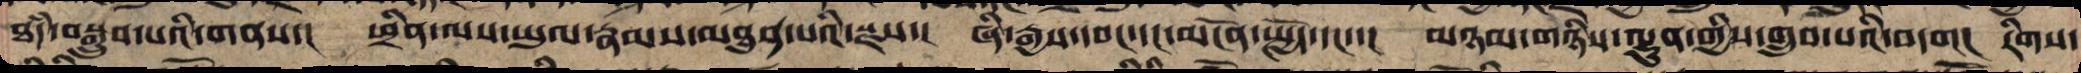ཐཾད་བསྒྲུབ་པའི་གནས་། ཕྲིན་ལས་ཡུལ་རྣམས་མཐུན་པའི་སྫས་། ཞི་རྒྱས་དབང་དང་མངོན་སྤྱོད་དང་་། མཉམ་གཉིས་ལྷུན་གྱིས་གྲུབ་པའི་བདག། རིགས་
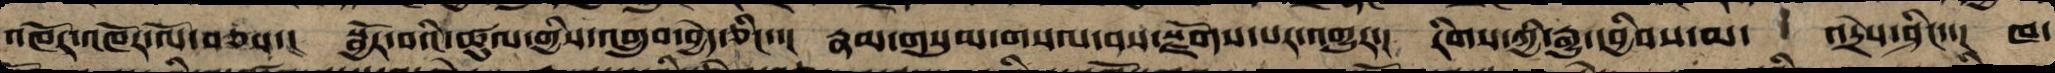འཁོར་འཁོར་ལོ་བཅས་། སྦྱོར་བའི་ཚུལ་གྱིས་འགྲུབ་བྱེད་ཅིང་་། རྣམ་གསུམ་གསལ་བས་སྫོགས་པར་འགྱུར་། རིགས་ཀྱི་རྒྱུ་དབྱིབས་མ་འདྲེས་ཤིང་་། ཁ་
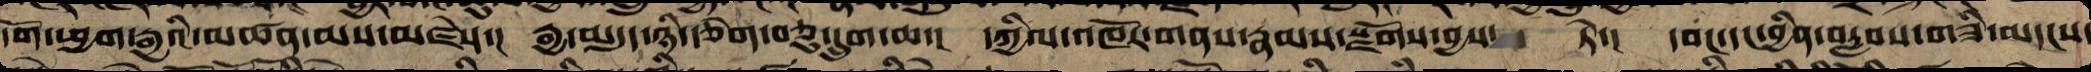དོག་ཕྱག་རྒྱའི་མཚན་མས་མཛེས་། རྒྱ་མདུད་ཉིས་བརྩེག་བཅུ་དྲུག་ཆ་། དཀྱིལ་འཁོར་གནས་རྣམས་སྫོགས་བྱས་ཏེ་། དབང་དང་བྱིན་རླབས་གཟི་མདངས་
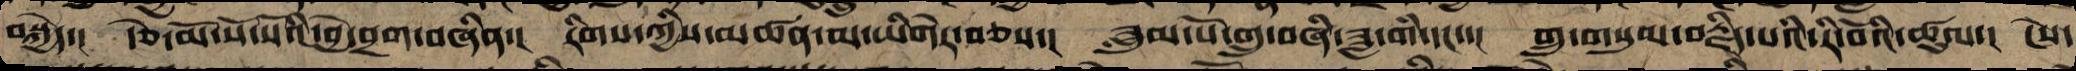བསྐྱེད་། རྩེ་མོ་སོ་སོའི་བྱེ་བྲག་བཞིན་། རིགས་ཀྱི་མཚན་མ་ཡི་གེར་བཅས་། ཟླུམ་པོ་གྲུ་བཞི་ཟླ་གམ་དང་་། གྲུ་གསུམ་བརྗིད་པའི་རི་བོའི་ཚུལ་། ངེས་
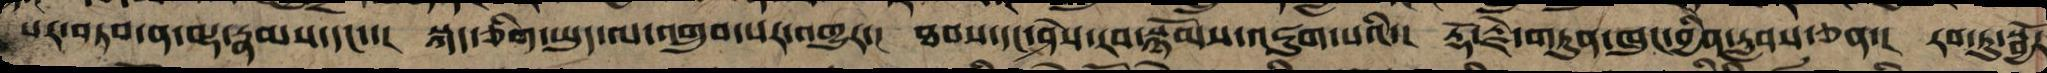པར་བཏབ་ན་ལྷ་རྣམས་དང་་། སྐད་ཅིག་ཡུད་ལ་འགྲུབ་པར་འགྱུར་། ཐབས་དང་ཤེས་རབ་སྙོམས་འཇུག་པའི་། རྡོ་རྗེ་གཏུན་ཁུང་བྱིན་རླབས་ཅན་། རབ་ཏུ་སྦྱོར
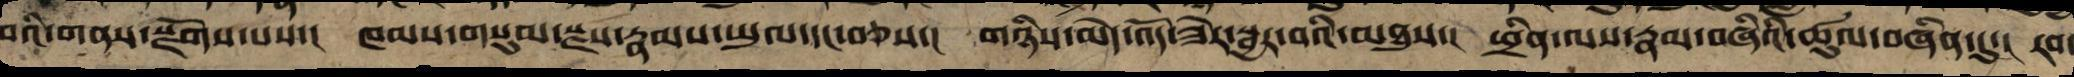བའི་གནས་སྫོགས་པས་། ཁམས་གསུམ་སྫས་རྣམས་ཡུལ་དང་བཅས་། གཉིས་མེད་འོད་ཟེར་སྦྱར་བའི་མཐུས་། ཕྲིན་ལས་རྣམ་བཞིའི་ཚུལ་བཞིན་དུ་། རབ་
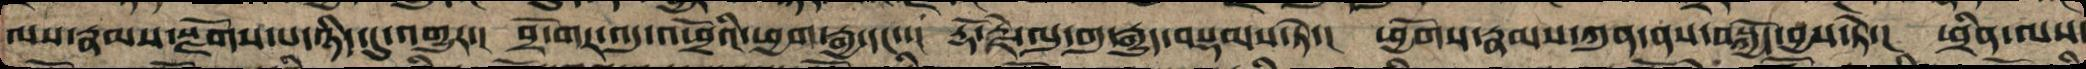ལས་རྣམས་སྫོགས་པ་ཉིད་དུ་འགྱུར་། བྲོ་གར་འདུ་འཕྲོའི་ཕྱག་རྒྱ་དང་་། རྡོ་རྗེ་ལུ་གུ་རྒྱུད་བསྡམས་ཏེ་། ཕྱོགས་རྣམས་ཀུན་ནས་བསྐྱོད་བྱས་ཏེ་། ཕྲིན་ལས་
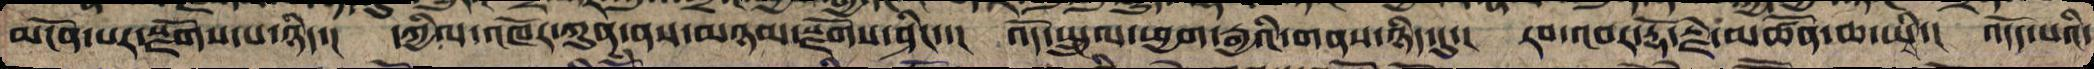མངོན་པར་སྫོགས་པ་ཉིད་། དཀྱིལ་འཁོར་ཀུན་ནས་མཉམ་སྫོགས་ཤིང་་། འོད་སྤྲུལ་ཕྱག་རྒྱའི་གནས་ཉིད་དུ་། རབ་འབར་རྡོ་རྗེའི་མཚོན་ཆ་ཡིས་། འདོད་པའི་
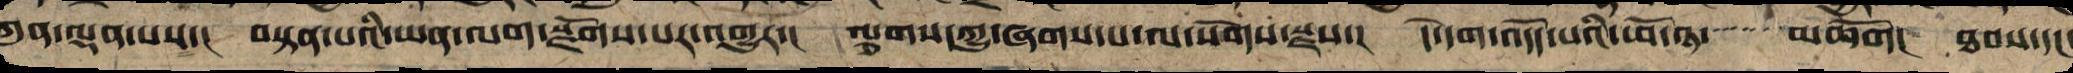ཀུན་ལྡན་པས་། བསྟན་པའི་ཡན་ལག་སྫོགས་པར་འགྱུར་། ལྕགས་ཀྱུ་ཞགས་པ་ལ་སོགས་སྫས་། དེ་དག་འདོད་པའི་ཕོ་ཉ་   མཆོག། ཐབས་དང་
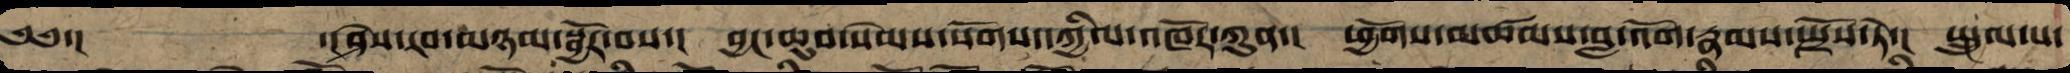༄༅་། ་།ཤེས་རབ་མཉམ་སྦྱོར་བས་། བྱང་ཆུབ་སེམས་སོགས་དཀྱིལ་འཁོར་ཀུན་། ཕྱོགས་མཚམས་བླ་འོག་རྣམས་སྤྲོས་ཏེ་། སྤྲུལ་པ་
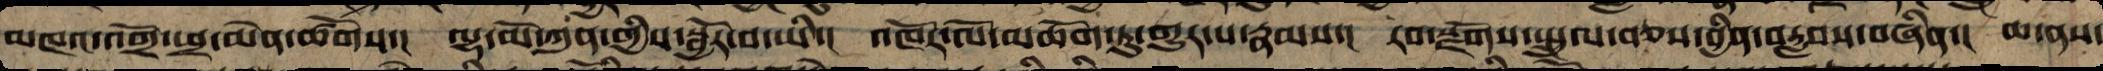མཁའ་འགྲོ་ཕྲ་མེན་ཚོགས་། ལྷ་མོ་ཀུན་གྱི་སྦྱོར་བ་ཡི་། འཁོར་ལོ་མཆོག་ཏུ་གྱུར་པ་རྣམས་། རབ་སྫོགས་སྤྲུལ་བཅས་བྱིན་བརླབས་བཞིན་། ཆ་ཤས་
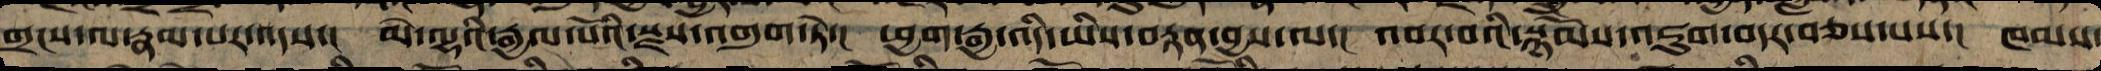གྲངས་ལས་རྣམ་པར་འདས་། མེ་ལྷའི་རྒྱལ་པོའི་སྫས་བགུག་ཏེ་། ཕྱག་རྒྱ་འདི་ཡིས་བརྟན་བྱས་ལ་། འབར་བའི་སྙོམས་འཇུག་བརྡར་བཅས་པས་། ཁམས་
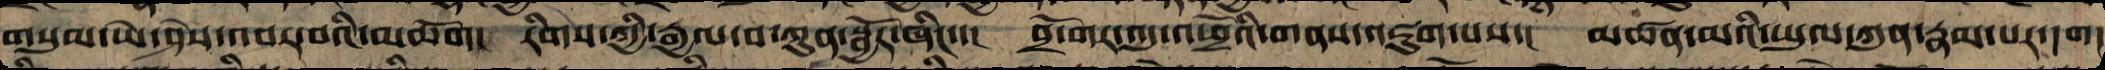གསུམ་ཡེ་ཤེས་འབར་བའི་མཆོག། རིགས་ཀྱི་རྒྱལ་བ་ཀུན་སྦྱོར་ཞིང་་། བྲོ་གར་འདུ་འཕྲོའི་གནས་འཇུག་པས་། མཚན་མའི་ཡུལ་ཀུན་རྣམ་པར་དག།
